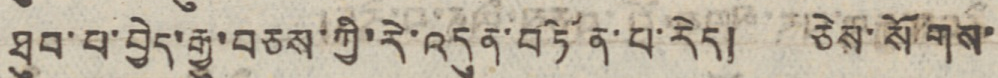ཐུབ་པ་བྱེད་རྒྱུ་བཅས་ཀྱི་རེ་འདུན་བཏོན་པ་རེད། ཅེས་སོགས་
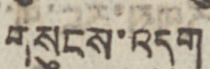གསུངས་འདུག
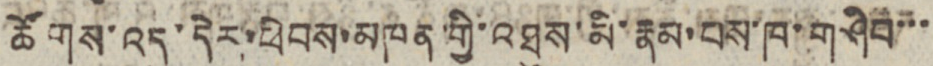ཚོགས་འདུ་དེར་ཕེབས་མཁན་གྱི་འཐུས་མི་རྣམ་པས་ཁ་གཤིབ་་་
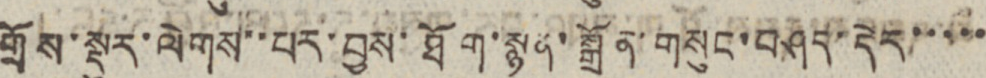གྲོས་སྡུར་ལེགས་་པར་བྱས་ཐོག་སྙན་སྒྲོན་གསུང་བཤད་དེར་་་་་
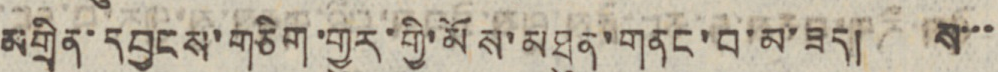མགྲིན་དབྱངས་གཅིག་གྱུར་གྱི་མོས་མཐུན་གནང་བ་མ་ཟད། ས་་་
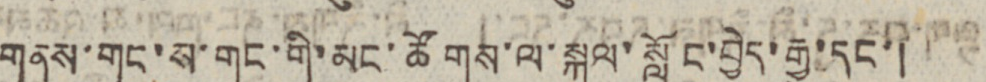གནས་གང་ས་གང་གི་མང་ཚོགས་ལ་སྐུལ་སློང་བྱེད་རྒྱུ་དང་།
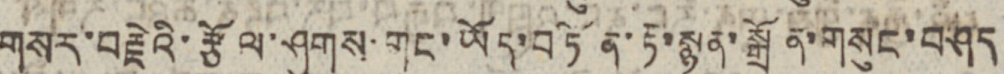གསར་བརྗེའི་རྩོལ་ཤུགས་གང་ཡོད་བཏོན་རྟ་སྙན་སྒྲོན་གསུང་བཤད
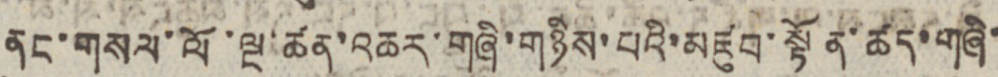ནང་གསལ་ལོ་ལྔ་ཚན་འཆར་གཞི་གཉིས་པའི་མཛུབ་སྟོན་ཚད་གཞི་
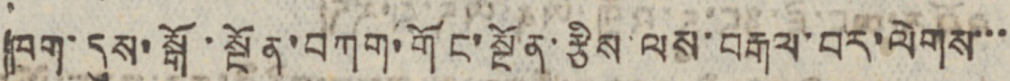ཁག་དུས་སྒོ་སྔོན་བཀག་གོང་སྔོན་རྩིས་ལས་བརྒལ་བར་ལེགས་་་
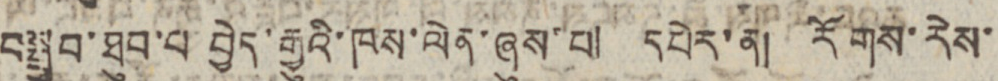བསྒྲུབ་ཐུབ་པ བྱེད་རྒྱུའི་ཁས་ལེན་ཞུས་པ། དཔེར་ན། རོགས་རེས་
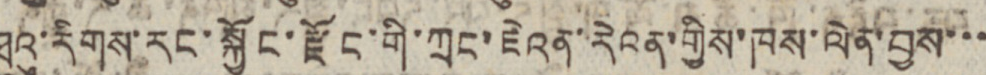ཐུའུ་རིགས་རང་སྐྱོང་རྫོང་གི་ཀྲང་ཇེའན་རེའན་གྱིས་ཁས་ལེན་བྱས་་་
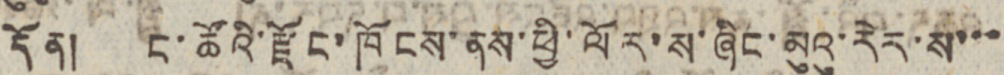དོན། ང་ཚོའི་རྫོང་ཁོངས་ནས་ཕྱི་ལོར་ས་ཞིང་མུའུ་རེར་ས་་་
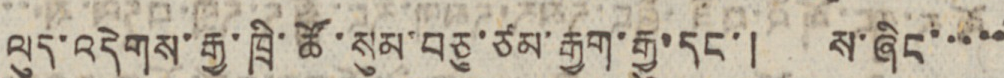ལུད་འདེགས་རྒྱ་ཁྲི་ཚོ་སུམ་བཅུ་ཙམ་རྒྱག་རྒྱུ་དང་། ས་ཞིང་་་་་
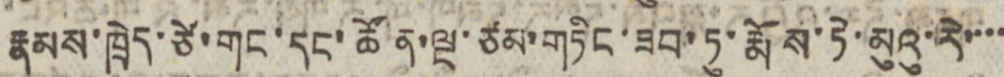རྣམས་ཁྲེད་ཙེ་གང་དང་ཚོན་ལྔ་ཙམ་གཏིང་ཟབ་ཏུ་རྨོས་ཏེ་མུའུ་རེ་་་་
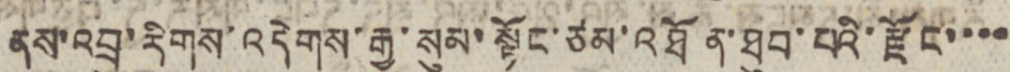ནས་འབྲུ་རིགས་འདེགས་རྒྱ་སུམ་སྟོང་ཙམ་འཐོན་ཐུབ་པའི་རྫོང་་་་
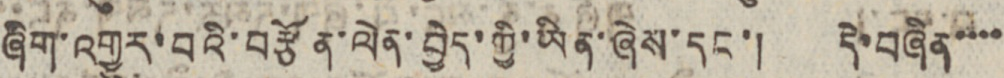ཞིག་འགྱུར་བའི་བརྩོན་ལེན་བྱེད་ཀྱི་ཡིན་ཞེས་དང་། དེ་བཞིན་་་་
